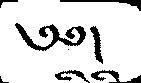༅།
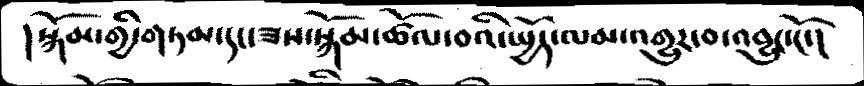། སྐོམ་གྱི་གཏམ་དང་ཟས་སྐོམ་ཚོལ་བའི་ཡྱོད་ལམ་འགྱུར་བ་འབྱུང་ངོ་།
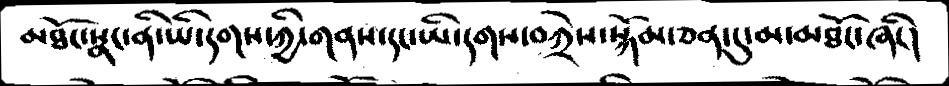མཐོང་སྣང་ནི་ཡི་དགས་ཀྱི་གནས་དང་ཡི་དགས་བཀྲེས་སྐོམ་ཅན་དུ་མཐོང་ཞིང་།
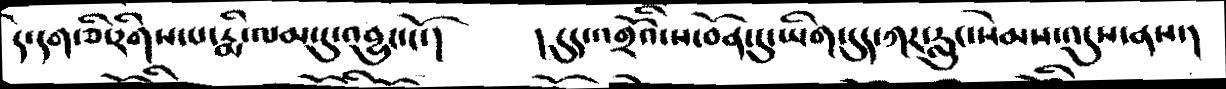དེ་དག་ཅི་རིགས་པ་རྨི་ལམ་དུ་འབྱུང་ངོ་།    །དུད་འགྲོའི་ས་བོན་དུ་ཡིག་དུད་ཀར་རླུང་སེམས་འདུས་ནས་།
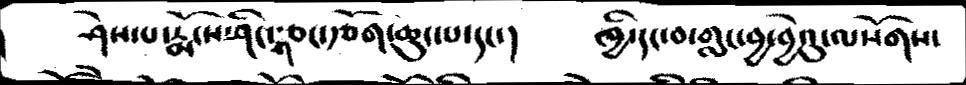ཤེས་པ་རྨོངས་ཤིང་གཅང་རྩོག་ཆུང་པ་དང་།   ཁྱི་དང་བ་གླང་བྱ་བྱེའུ་ལསོགས་
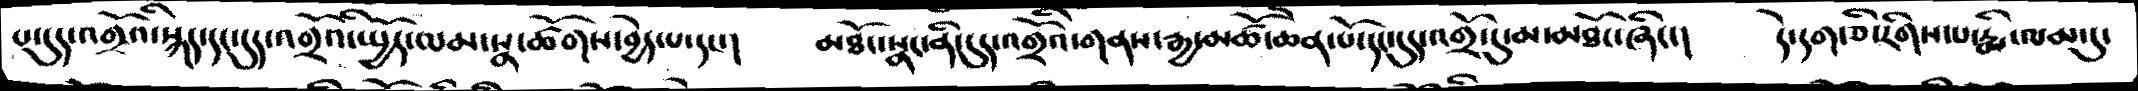པ་དུད་འགྲོའི་སྐད་དང་དུད་འགྲོའི་སྤྱོད་ལམ་སྣ་ཚོགས་བྱེད་པ་དང་།   མཐོང་སྣང་ནི་དུད་འགྲོའི་གནས་རྒྱ་མཚོ་ཆེན་པོ་དང་དུད་འགྲོ་དུ་མ་མཐོང་ཞིང་།   དེ་དག་ཅི་རིགས་པ་རྨི་ལམ་དུ་
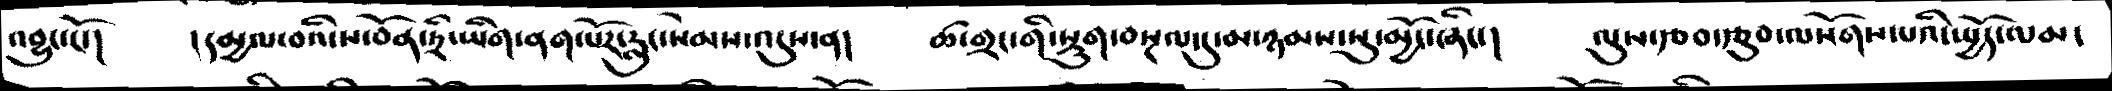འབྱུང་ངོ་།  །དམྱལ་བའི་ས་བོན་ཏྲི་ཡིག་ནག་པོར་རླང་སེམས་འདུས་ན།   ཚ་གྲང་གི་སྡུག་བསྔལ་དུ་མ་ཉམས་སུ་མྱོང་ཞིང་།    ལུས་རྩབ་རྩུབ་ལསོགས་པའི་སྤྱོད་ལམ་
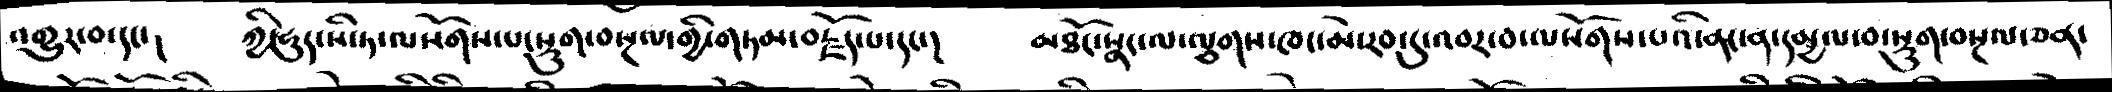འགྱུར་བ་དང་།   ཀྱི་ཧུད་སི་ཏ་ལསོགས་པ་སྡུག་བསྔལ་གྱི་གཏམ་བརྗོད་པ་དང་།   མཐོང་སྣང་ལ་ལྕགས་ཁང་མེ་རབ་དུ་འབར་བ་ལསོགས་པའི་ནང་ན་དམྱལ་བ་སྡུག་བསྔལ་ཅན་
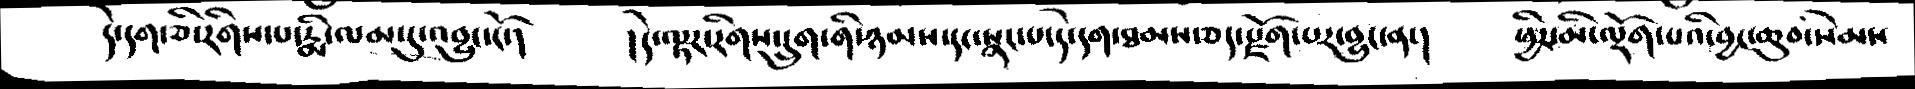དེ་དག་ཅི་རིགས་པ་རྨི་ལམ་དུ་འབྱུང་ངོ་།      །དེ་ལྟར་རིགས་དྲུག་གི་ཉམས་དང་སྣང་པ་དེ་དག་ཐམས་ཅད་སྫོག་པར་བྱུང་ན་།   ཕྱིར་མི་ལྡོག་པའི་བྱང་ཆུབ་སེམས
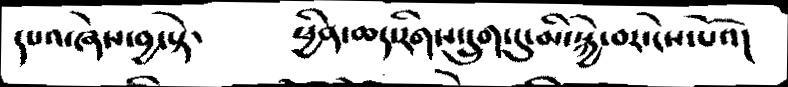དཔའ་ཞེས་བྱ་སྟེ་་     ཕྱིན་ཆད་རིགས་དྲུག་དུ་མི་སྐྱེ་བར་ངེས་པའོ།
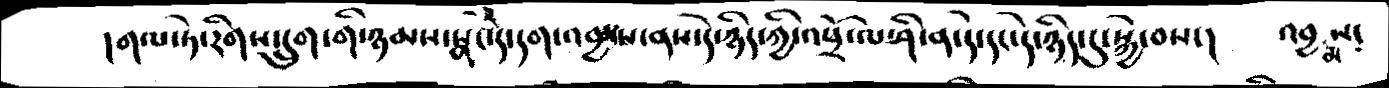།གལ་ཏེ་རིགས་དྲུག་གི་ཉམས་སྣང་དེ་དག་འབྱམས་ནས་དེ་ཉིད་ཀྱི་འཕྲོ་ལ་ཤི་ན་དེ་དང་དེ་ཉིད་དུ་སྐྱེ་བས་།  འབྱམས་
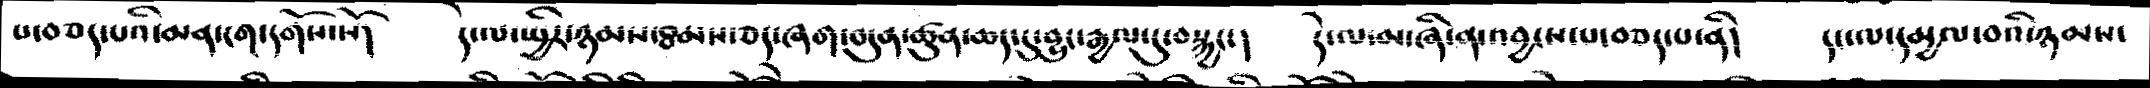པ་བཅད་པའི་མན་ངག་དགོས་སོ།   དེ་ལ་སྤྱིར་ཉམས་ཐམས་ཅད་ཞག་བདུན་ཚུན་ཆད་དུ་བྱུང་རྒྱལ་དུ་བསྐྱང་།     དེ་ལ་མ་ཞི་ན་འབྱངས་པ་བཅད་པ་ནི།  དང་ལ་དམྱལ་བའི་ཉམས་
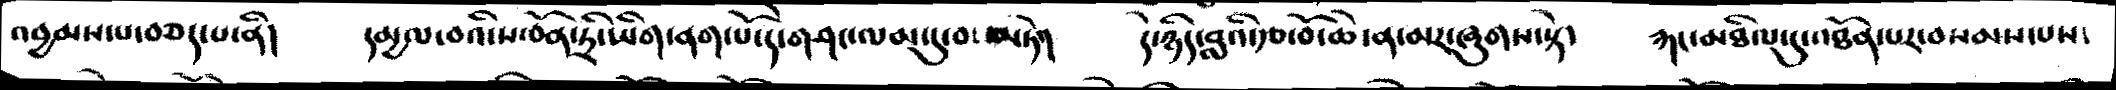འབྱམས་པ་བཅད་པ་ནི།    དམྱལ་བའི་ས་བོན་ཏྲི་ཡིག་ནག་པོ་དེ་གཤང་ལམ་དུ་བསམཏེ།   དེ་ཉིད་བླའི་རྩ་བོ་ཆེ་ན་མར་ཞུགས་སྟེ།    རྐང་མཐིལ་དུ་འཐོན་པར་བསམས་པས་
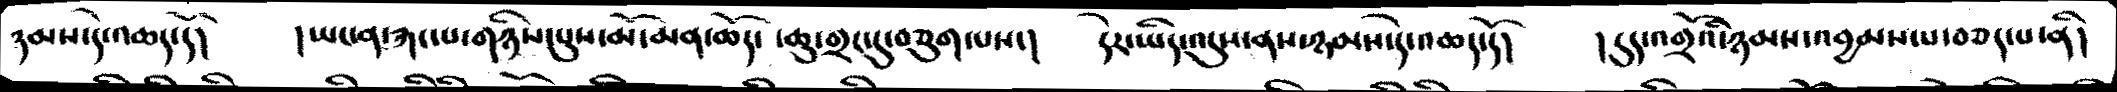དམས་དེ་འཆད་དོ།   །ཡང་ན་རྐང་པ་གཉིས་པུས་མོ་མན་ཆོད་ ་ཆུ་གྲང་དུ་བཅུག་པས་།   དེར་ཡིད་འདུས་ནས་ཉམས་དེ་འཆད་དོ།     །དུད་འགྲོའི་ཉམས་འབྱམས་པ་བཅད་པ་ནི།
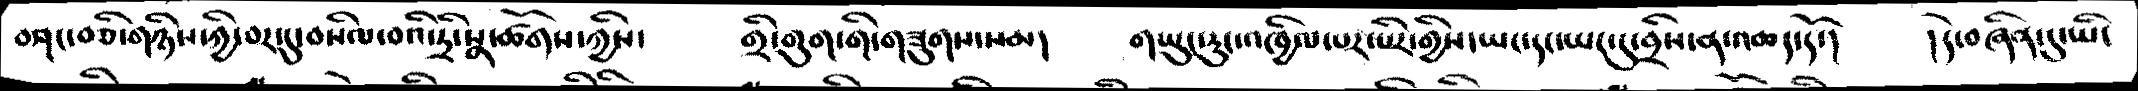བཤང་བཅི་གཉིས་ཀྱི་བར་དུ་བསིལ་བའི་དྲི་སྣ་ཚོགས་ཀྱིས་   གྲི་གུག་གི་གཟུགས་སམ།   གཡུང་རུང་འཁྱིལ་པར་པིར་གྱིས་ཡང་དང་ཡང་དུ་བྲིས་ན་འཆད་དོ་།་   །དེ་བཞིན་དུ་ཡི་
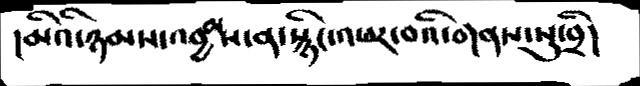།མིའི་ཉམས་འབྱམས་ན་སྙིང་འཕར་བའི་གནས་སུ་བྲི།
